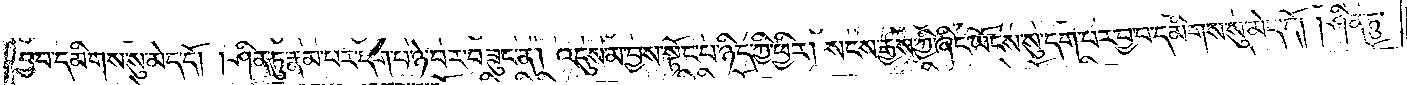བྱ་བ་དམིགས་སུ་མེད་དོ། །ཤིན་ཏུ་རྣམ་པར་དག་པ་ཉེ་བར་བཟུང་ན། འདུས་མ་བྱས་སྟོང་པ་ཉིད་ཀྱི་ཕྱིར། སངས་རྒྱས་ཀྱི་ཞིང་ཡོངས་སུ་དག་པར་བྱ་བ་དམིགས་སུ་མེད་དོ། །ཤིན་ཏུ་
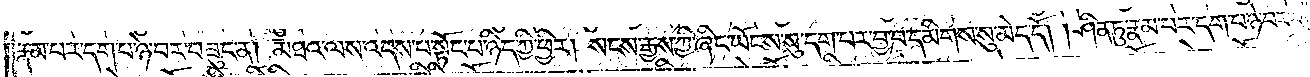རྣམ་པར་དག་པ་ཉེ་བར་བཟུང་ན། མཐའ་ལས་འདས་པ་སྟོང་པ་ཉིད་ཀྱི་ཕྱིར། སངས་རྒྱས་ཀྱི་ཞིང་ཡོངས་སུ་དག་པར་བྱ་བ་དམིགས་སུ་མེད་དོ། །ཤིན་ཏུ་རྣམ་པར་དག་པ་ཉེ་བར་བཟུང་ན། ཐོག་
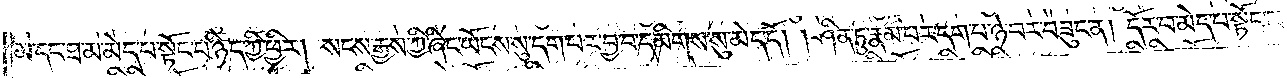མ་དང་ཐ་མ་མེད་པ་སྟོང་པ་ཉིད་ཀྱི་ཕྱིར། སངས་རྒྱས་ཀྱི་ཞིང་ཡོངས་སུ་དག་པར་བྱ་བ་དམིགས་སུ་མེད་དོ། །ཤིན་ཏུ་རྣམ་པར་དག་པ་ཉེ་བར་བཟུང་ན། དོར་བ་མེད་པ་སྟོང་པ་ཉིད་ཀྱི་ཕྱིར།
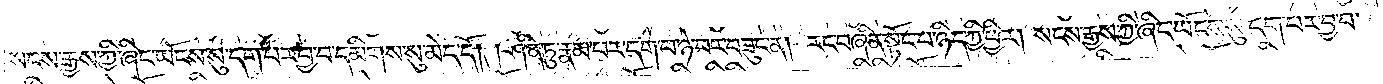སངས་རྒྱས་ཀྱི་ཞིང་ཡོངས་སུ་དག་པར་བྱ་བ་དམིགས་སུ་མེད་དོ། །ཤིན་ཏུ་རྣམ་པར་དག་པ་ཉེ་བར་བཟུང་ན། རང་བཞིན་སྟོང་པ་ཉིད་ཀྱི་ཕྱིར། སངས་རྒྱས་ཀྱི་ཞིང་ཡོངས་སུ་དག་པར་བྱ་བ་
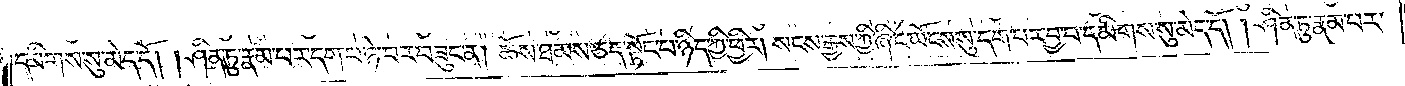དམིགས་སུ་མེད་དོ། །ཤིན་ཏུ་རྣམ་པར་དག་པ་ཉེ་བར་བཟུང་ན། ཆོས་ཐམས་ཅད་སྟོང་པ་ཉིད་ཀྱི་ཕྱིར་སངས་རྒྱས་ཀྱི་ཞིང་ཡོངས་སུ་དག་པར་བྱ་བ་དམིགས་སུ་མེད་དོ། །ཤིན་ཏུ་རྣམ་པར་
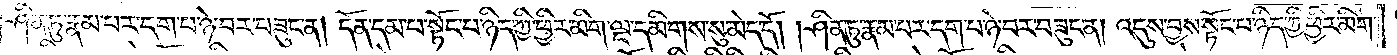ཤིན་ཏུ་རྣམ་པར་དག་པ་ཉེ་བར་བཟུང་ན། དོན་དམ་པ་སྟོང་པ་ཉིད་ཀྱི་ཕྱིར་མིག་ལྔ་དམིགས་སུ་མེད་དོ། །ཤིན་ཏུ་རྣམ་པར་དག་པ་ཉེ་བར་བཟུང་ན། འདུས་བྱས་སྟོང་པ་ཉིད་ཀྱི་ཕྱིར་མིག་
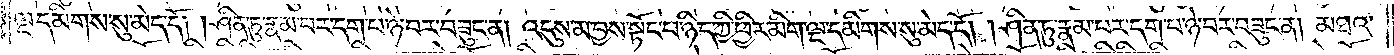ལྔ་དམིགས་སུ་མེད་དོ། །ཤིན་ཏུ་རྣམ་པར་དག་པ་ཉེ་བར་བཟུང་ན། འདུས་མ་བྱས་སྟོང་པ་ཉིད་ཀྱི་ཕྱིར་མིག་ལྔ་དམིགས་སུ་མེད་དོ། །ཤིན་ཏུ་རྣམ་པར་དག་པ་ཉེ་བར་བཟུང་ན། མཐའ་
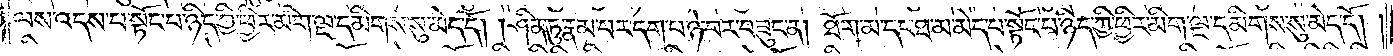ལས་འདས་པ་སྟོང་པ་ཉིད་ཀྱི་ཕྱིར་མིག་ལྔ་དམིགས་སུ་མེད་དོ། །ཤིན་ཏུ་རྣམ་པར་དག་པ་ཉེ་བར་བཟུང་ན། ཐོག་མ་དང་ཐ་མ་མེད་པ་སྟོང་པ་ཉིད་ཀྱི་ཕྱིར་མིག་ལྔ་དམིགས་སུ་མེད་དོ། །
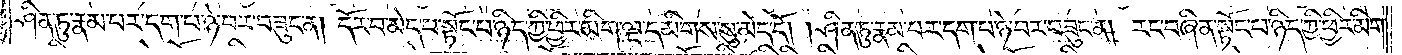ཤིན་ཏུ་རྣམ་པར་དག་པ་ཉེ་བར་བཟུང་ན། དོར་བ་མེད་པ་སྟོང་པ་ཉིད་ཀྱི་ཕྱིར་མིག་ལྔ་དམིགས་སུ་མེད་དོ། །ཤིན་ཏུ་རྣམ་པར་དག་པ་ཉེ་བར་བཟུང་ན། རང་བཞིན་སྟོང་པ་ཉིད་ཀྱི་ཕྱིར་མིག་
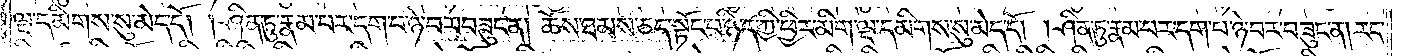ལྔ་དམིགས་སུ་མེད་དོ། །ཤིན་ཏུ་རྣམ་པར་དག་པ་ཉེ་བར་བཟུང་ན། ཆོས་ཐམས་ཅད་སྟོང་པ་ཉིད་ཀྱི་ཕྱིར་མིག་ལྔ་དམིགས་སུ་མེད་དོ། །ཤིན་ཏུ་རྣམ་པར་དག་པ་ཉེ་བར་བཟུང་ན། རང་
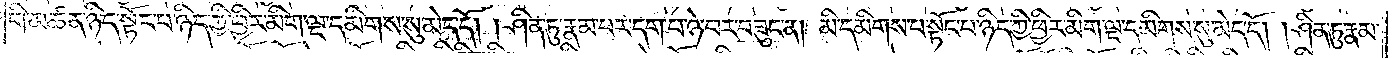གི་མཚན་ཉིད་སྟོང་པ་ཉིད་ཀྱི་ཕྱིར་མིག་ལྔ་དམིགས་སུ་མེད་དོ། །ཤིན་ཏུ་རྣམ་པར་དག་པ་ཉེ་བར་བཟུང་ན། མི་དམིགས་པ་སྟོང་པ་ཉིད་ཀྱི་ཕྱིར་མིག་ལྔ་དམིགས་སུ་མེད་དོ། །ཤིན་ཏུ་རྣམ་
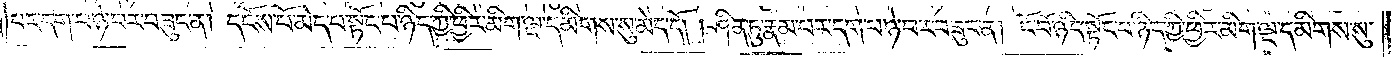པར་དག་པ་ཉེ་བར་བཟུང་ན། དངོས་པོ་མེད་པ་སྟོང་པ་ཉིད་ཀྱི་ཕྱིར་མིག་ལྔ་དམིགས་སུ་མེད་དོ། །ཤིན་ཏུ་རྣམ་པར་དག་པ་ཉེ་བར་བཟུང་ན། ངོ་བོ་ཉིད་སྟོང་པ་ཉིད་ཀྱི་ཕྱིར་མིག་ལྔ་དམིགས་སུ་
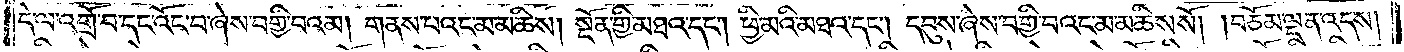དེ་ལ་འགྲོ་བ་དང་འོང་པ་ཞེས་བགྱི་པའམ། གནས་པའང་མ་མཆིས། སྔོན་གྱི་མཐའ་དང༌། ཕྱི་མའི་མཐའ་དང༌། དབུས་ཞེས་བགྱི་བའང་མ་མཆིས་སོ། །བཅོམ་ལྡན་འདས།
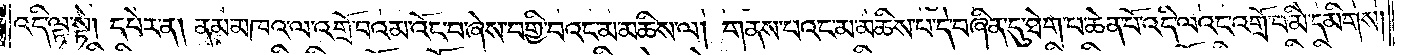འདི་ལྟ་སྟེ། དཔེར་ན། ནམ་མཁའ་ལ་འགྲོ་བ་འམ་འོང་བ་ཞེས་བགྱི་བའང་མ་མཆིས་ལ། གནས་པའང་མ་མཆིས་པ་དང་བཞིན་དུ་ཐེག་པ་ཆེན་པོ་འདི་ལའང་འགྲོ་བ་མི་དམིགས།
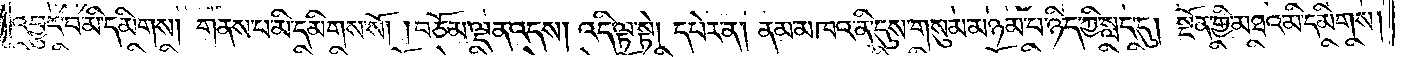འབྱུང་བ་མི་དམིགས། གནས་པ་མི་དམིགས་སོ། །བཅོམ་ལྡན་འདས། འདི་ལྟ་སྟེ། དཔེར་ན། ནམ་མཁའ་ནི་དུས་གསུམ་མཉམ་པ་ཉིད་ཀྱི་སླད་དུ། སྔོན་གྱི་མཐའ་མི་དམིགས།
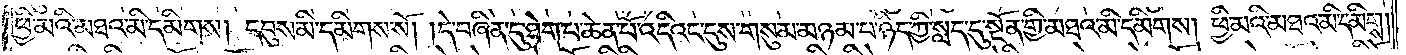ཕྱི་མའི་མཐའ་མི་དམིགས། དབུས་མི་དམིགས་སོ། །དེ་བཞིན་དུ་ཐེག་པ་ཆེན་པོ་འདིའང་དུས་གསུམ་མཉམ་པ་ཉིད་ཀྱི་སླད་དུ་སྔོན་གྱི་མཐའ་མི་དམིགས། ཕྱི་མའི་མཐའ་མི་དམིགས།
